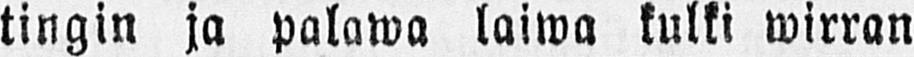tingin ja palawa laiwa kulki wirran
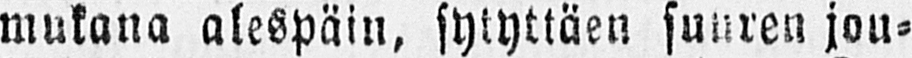mukana alespäin, sytyttäen suuren jou-
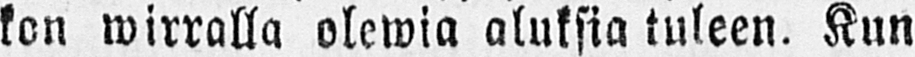kon wirralla olewia aluksia tuleen. Kun
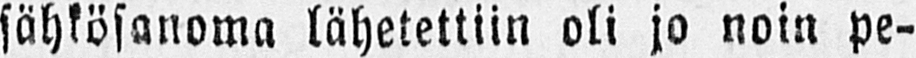sähkösanoma lähetettiin oli jo noin pe-
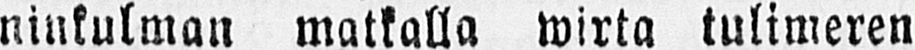ninkulman matkalla wirta tulimeren
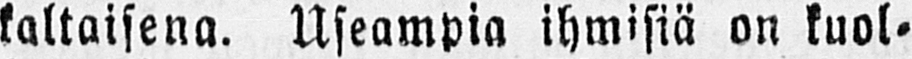kaltaisena. Useampia ihmisiä on kuol-
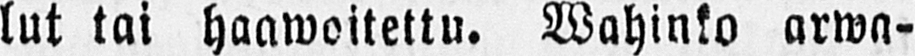lut tai haawoitettu. Wahinko arwa-
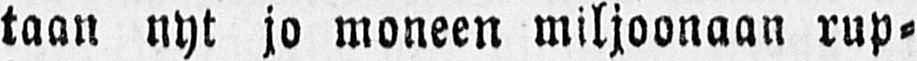taan nyt jo moneen miljoonaan rup-
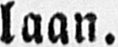laan.
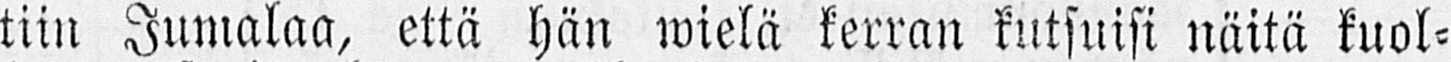tiin Jumalaa, että hän wielä kerran kutsuisi näitä kuol-
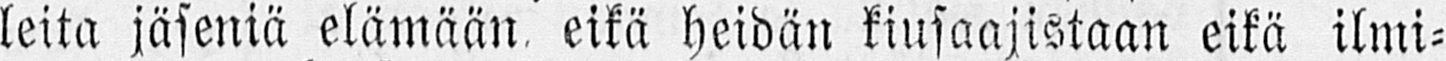leita jäseniä elämään eikä heidän kiusaajistaan eikä ilmi-
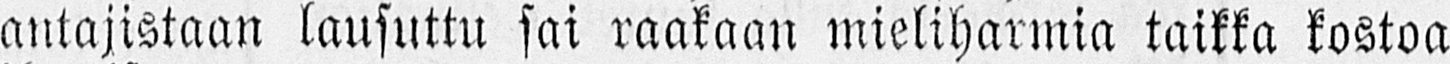antajistaan lausuttu sai raakaan mieliharmia taikka kostoa
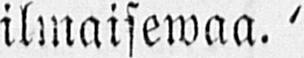ilmaisewaa.'
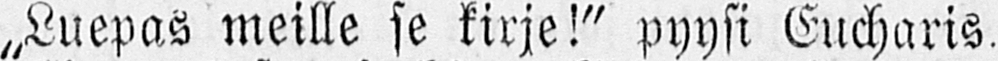„Luepas meille se kirje!" pyysi Eucharis.
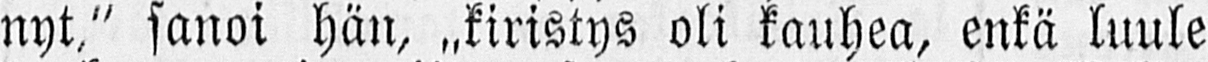„Ei nyt," sanoi hän, „kiristys oli kauhea, enkä luule
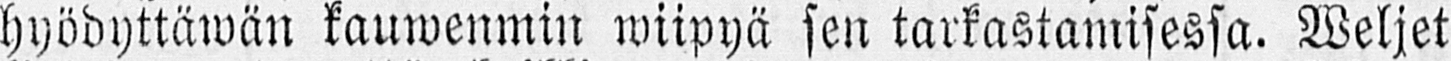hyödyttäwän kauwenmin wiipyä sen tarkastamisessa. Weljet
